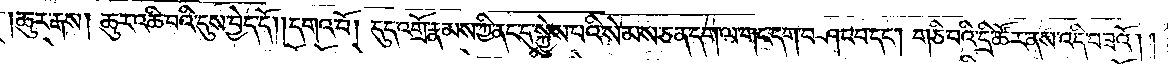ཆུར་རྒས། ཆུར་འཆི་བའི་དུས་བྱེད་དོ། །དགའ་བོ། དུད་འགྲོ་རྣམས་ཀྱི་ནང་དུ་སྐྱེས་པའི་སེམས་ཅན་དག་ལ་གང་དག་བཤང་བ་དང༌། གཅི་བའི་དྲི་ཚོར་ནས་འདི་བཟའོ། །
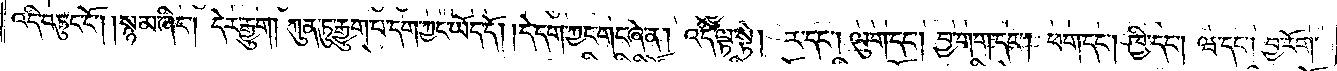འདི་བཏུང་ངོ༌། །སྙམ་ཞིང༌། དེར་རྒྱུག། ཀུན་ཏུ་རྒྱུག་པ་དག་ཀྱང་ཡོད་དོ། །དེ་དག་ཀྱང་གང་ཞེ་ན། འདི་ལྟ་སྟེ། ར་དང༌། ལུག་དང༌། བྱ་གག་དང༌། ཕག་དང༌། ཁྱི་དང༌། ཝ་དང༌། བྱ་རོག་
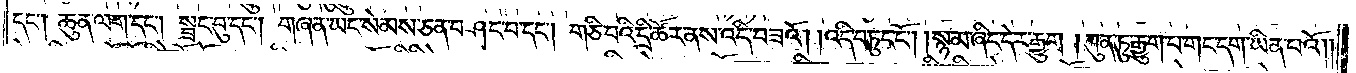དང༌། ཆུན་ལག་དང༌། སྦྲང་བུ་དང༌། གཞན་ཡང་སེམས་ཅན་བཤང་བ་དང༌། གཅི་བའི་དྲི་ཚོར་ནས་འདི་བཟའོ། །འདི་བཏུང་ངོ༌། །སྙམ་ཞིང་དེར་རྒྱུག །ཀུན་ཏུ་རྒྱུག་པ་གང་དག་ཡིན་པའོ། །
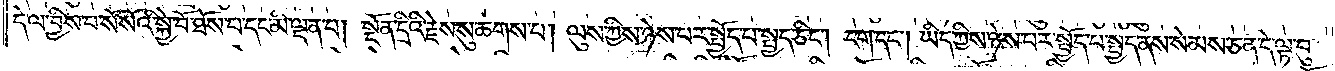དེ་ལ་བྱིས་པ་སོ་སོའི་སྐྱེ་བོ་ཐོས་པ་དང་མི་ལྡན་པ། སྔོན་དྲིའི་རྗེས་སུ་ཆགས་པ། ལུས་ཀྱིས་ཉེས་པར་སྤྱོད་པ་སྤྱད་ཅིང༌། ངག་དང༌། ཡིད་ཀྱིས་ཉེས་པར་སྤྱོད་པ་སྤྱད་ནས་སེམས་ཅན་དེ་ལྟ་བུ་
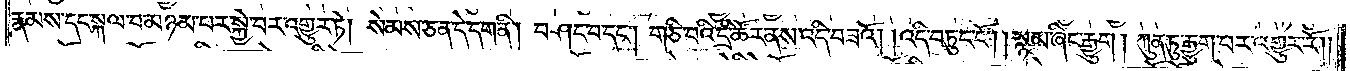རྣམས་དང་སྐལ་བ་མཉམ་པར་སྐྱེ་བར་འགྱུར་ཏེ། སེམས་ཅན་དེ་དག་ནི། བཤང་བ་དང༌། གཅི་བའི་དྲི་ཚོར་ནས་འདི་བཟའོ། །འདི་བཏུང་ངོ༌། །སྙམ་ཞིང་རྒྱུག །ཀུན་ཏུ་རྒྱུག་པར་འགྱུར་རོ། །
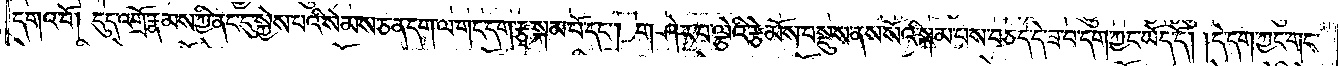དགའ་བོ། དུད་འགྲོ་རྣམས་ཀྱི་ནང་དུ་སྐྱེས་པའི་སེམས་ཅན་དག་ལ་གང་དག་རྩྭ་སྐམ་པོ་དང༌། གཤེར་བ་ལྕེའི་རྩེ་མོས་བསྡུས་ནས་སོའི་སྐམ་པས་བཅད་དེ་ཟ་བ་དག་ཀྱང་ཡོད་དོ། །དེ་དག་ཀྱང་གང་
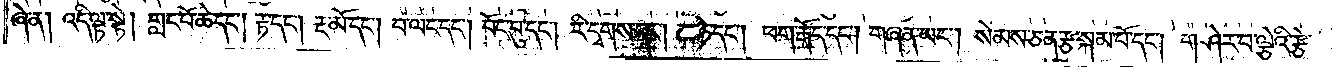ཞེ་ན། འདི་ལྟ་སྟེ། གླང་པོ་ཆེ་དང༌། རྟ་དང༌། རྔ་མོ་དང༌། བ་ལང་དང༌། བོང་བུ་དང༌། རི་དྭགས་དང༌། མ་ཧེ་དང༌། ཕག་རྒོད་དང༌། གཞན་ཡང༌། སེམས་ཅན་རྩ་སྐམ་པོ་དང༌། གཤེར་བ་ལྕེའི་རྩེ་
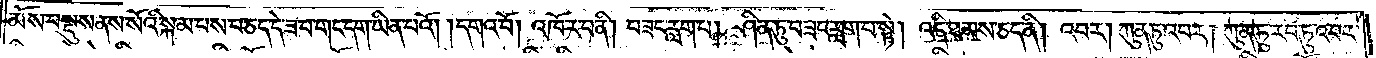མོས་བསྡུས་ནས་སོའི་སྐམ་པས་བཅད་དེ་ཟ་བ་གང་དག་ཡིན་པའོ། །དགའ་བོ། འཁོར་བ་ནི། བཟང་རླག་པ། ཤིན་ཏུ་བཟང་རླག་པ་སྟེ། འདི་ཐམས་ཅད་ནི། འབར། ཀུན་ཏུ་འབར། ཀུན་ཏུ་རབ་ཏུ་འབར་
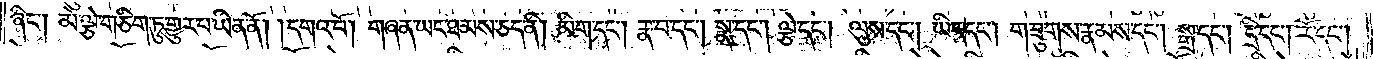ཞིང༌། མེ་ལྕེ་གཅིག་ཏུ་གྱུར་པ་ཡིན་ནོ། །དགའ་བོ། གཞན་ཡང་ཐམས་ཅད་ནི། མིག་དང༌། རྣ་བ་དང༌། སྣ་དང༌། ལྕེ་དང༌། ལུས་དང༌། ཡིད་དང༌། གཟུགས་རྣམས་དང༌། སྒྲ་དང༌། དྲི་དང༌། རོ་དང༌།
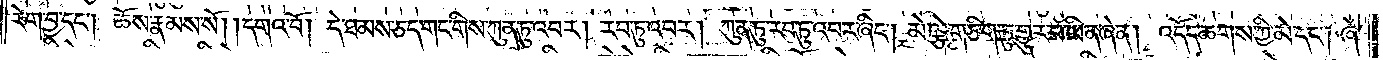རེག་བྱ་དང༌། ཆོས་རྣམས་སོ། །དགའ་བོ། དེ་ཐམས་ཅད་གང་གིས་ཀུན་ཏུ་འབར། རབ་ཏུ་འབར། ཀུན་ཏུ་རབ་ཏུ་འབར་ཞིང༌། མེ་ལྕེ་གཅིག་ཏུ་གྱུར་པ་ཡིན་ཞེ་ན། འདོད་ཆགས་ཀྱི་མེ་དང༌། ཞེ་
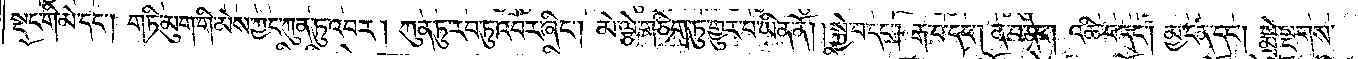སྡང་གི་མེ་དང༌། གཏི་མུག་གི་མེས་ཀྱང་ཀུན་ཏུ་འབར། ཀུན་ཏུ་རབ་ཏུ་འབར་ཞིང༌། མེ་ལྕེ་གཅིག་ཏུ་གྱུར་པ་ཡིན་ནོ། །སྐྱེ་བ་དང༌། རྒ་བ་དང༌། ན་བ་དང༌། འཆི་བ་དང༌། མྱ་ངན་དང༌། སྨྲེ་སྔགས་
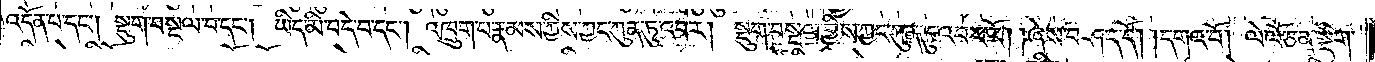འདོན་པ་དང༌། སྡུག་བསྔལ་བ་དང༌། ཡིད་མི་བདེ་བ་དང༌། འཁྲུག་པ་རྣམས་ཀྱིས་ཀྱང་ཀུན་ཏུ་འབར། སྡུག་བསྔལ་གྱིས་ཀྱང་ཀུན་ཏུ་འབར་རོ། །ཞེས་བཤད་དོ། །དགའ་བོ། ལེ་ལོ་ཅན་སྡིག་
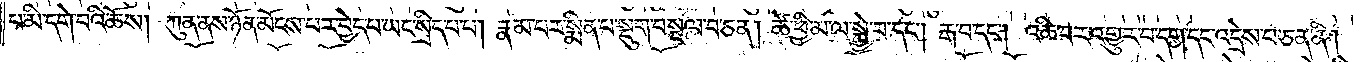པ་མི་དགེ་བའི་ཆོས། ཀུན་ནས་ཉོན་མོངས་པར་བྱེད་པ་ཡང་སྲིད་པ་པ། རྣམ་པར་སྨིན་པ་སྡུག་བསྔལ་བ་ཅན། ཚེ་ཕྱི་མ་ལ་སྐྱེ་བ་དང༌། རྒ་བ་དང༌། འཆི་བར་འགྱུར་བ་དག་དང་འདྲེས་པ་ཅན་ནི།
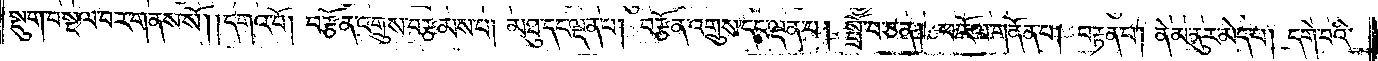སྡུག་བསྔལ་བར་གནས་སོ། །དགའ་བོ། བརྩོན་འགྲུས་བརྩམས་པ། མཐུ་དང་ལྡན་པ། བརྩོན་འགྲུས་དང་ལྡན་པ། སྤྲོ་བ་ཅན། ཕ་རོལ་གནོན་པ། བརྟན་པ། ནེམ་ནུར་མེད་པ། དགེ་བའི་
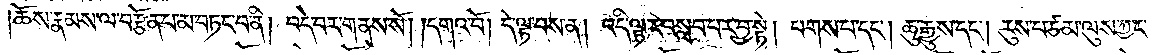ཆོས་རྣམས་ལ་བརྩོན་པ་མ་བཏང་བ་ནི། བདེ་བར་གནས་སོ། །དགའ་བོ། དེ་ལྟ་བས་ན། འདི་ལྟར་བསླབ་པར་བྱ་སྟེ། པགས་པ་དང༌། ཆུ་རྒྱུས་དང༌། རུས་པ་ཙམ་ལུས་ཀྱང་
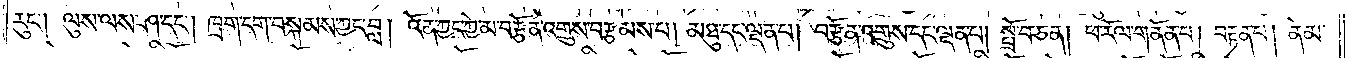རུང༌། ལུས་ལས་ཤ་དང༌། ཁྲག་དག་བསྐམས་ཀྱང་བླ། འོན་ཀྱང་ཀྱེ་མ་བརྩོན་འགྲུས་བརྩམས་པ། མཐུ་དང་ལྡན་པ། བརྩོན་འགྲུས་དང་ལྡན་པ། སྤྲོ་བ་ཅན། ཕ་རོལ་གནོན་པ། བརྟན་པ། ནེམ་
